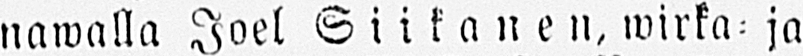nawalla Joel Siikanen, wirka- ja
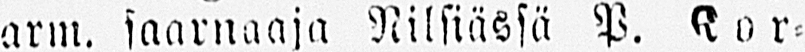arm. saarnaaja Nilsiässä P. Kor-
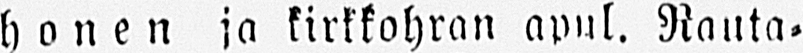honen ja kirkkohran apul. Rauta-
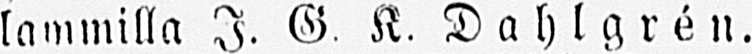lammilla I. G. K. Dahlgrén.
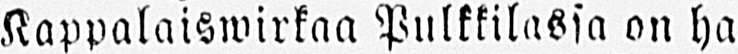Kappalaiswirkaa Pulkkilassa on ha-
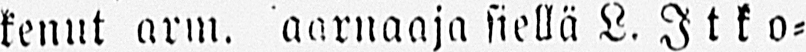kenut arm. aarnaaja siellä L. Itko-
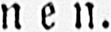nen.
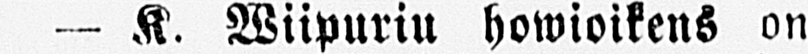— K. Wiipuriu howioikens on
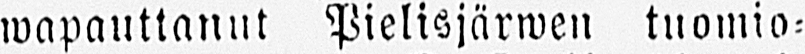wapauttanut Pielisjärwen tuomio-
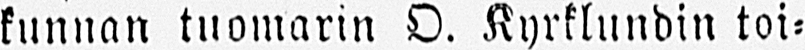kunnan tuomarin O. Kyrklundin toi-
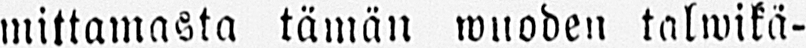mittamasta tämän wuoden talwikä-
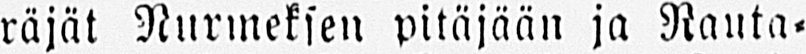räjät Nurmeksen pitäjään ja Rauta-
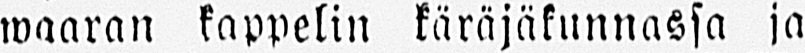waaran kappelin käräjäkunnassa ja
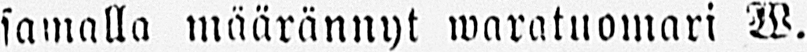samalla määrännyt waratuomari W.
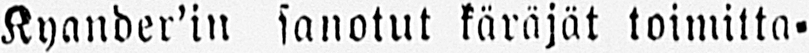Kyander’in sanotut käräjät toimitta-
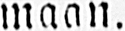maan.
